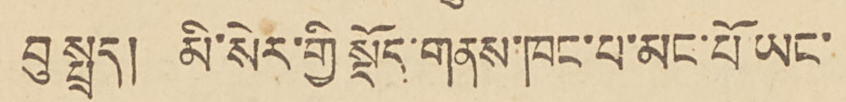བུ་སྤྲད། མི་སེར་གྱི སྡོད་གནས་ཁང་པ་མང་པོ ཡང་
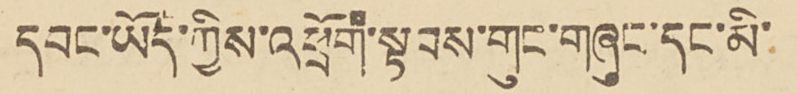དབང་ཡོད་ཀྱིས་འཕྲོག་སྟབས་གུང་གཞུང་དང་མི་
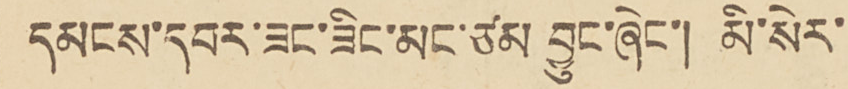དམངས་དབར་ཟང་ཟིང་མང་ཙམ བྱུང་ཞེང་། མི་སེར་
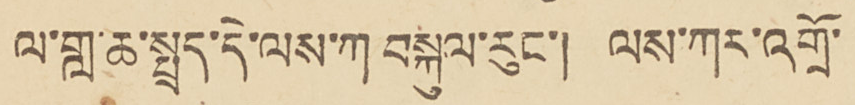ལ་གླ་ཆ་སྤྲད་དེ་ལས་ཀ བསྐུལ་རུང་། ལས་ཀར་འགྲོ་
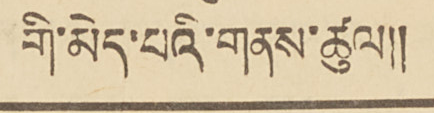གི་མེད་པའི་གནས་ཚུལ།།
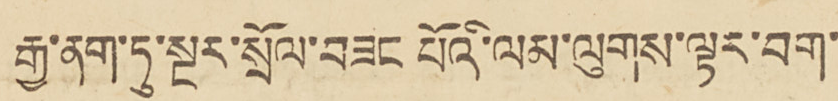རྒྱ་ནག་ཏུ་སྔར་སྲོལ་བཟང པོའི་ལམ་ལུགས་ལྟར་བག་
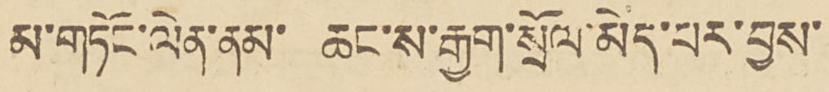མ་གཏོང་ལེན་ནམ་ ཆང་ས་རྒྱག་སྲོལ་མེད་པར་བྱས་
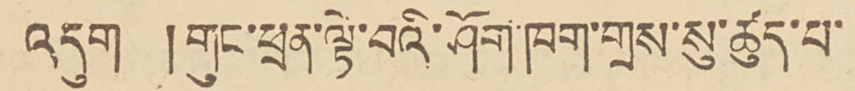འདུག །གུང་ཕྲན་ལྟེ་བའི་ཤོག་ཁག་གྲས་སུ་ཚུད་པ་
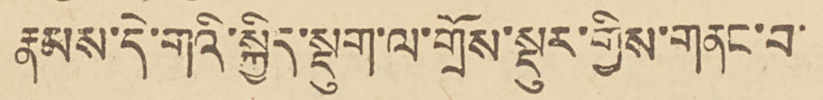རྣམས་དེ་གའི་སྐྱིད་སྡུག་ལ་གྲོས་སྡུར་གྱིས་གནང་བ་
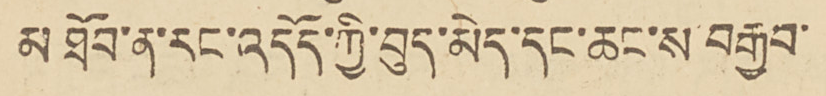མ་ཐོབ་ན་རང་འདོད་ཀྱི་བུད་མེད་དང་ཆང་ས་བརྒྱབ་
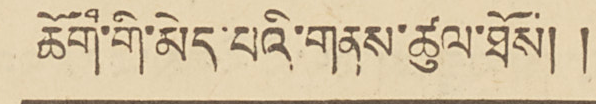ཆོག་གི་མེད་པའི་གནས་ཚུལ་ཐོས།།
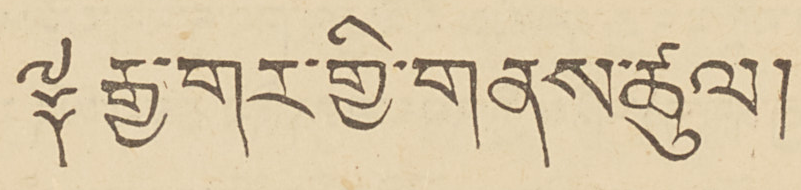༈ རྒྱ་གར་གྱི་གནས་ཚུལ།
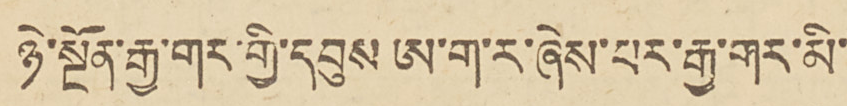ཉེ་སྔོན་རྒྱ་གར་གྱི་དབུས ཨ་ག་ར་ཞེས་པར་རྒྱ་གར་མི་
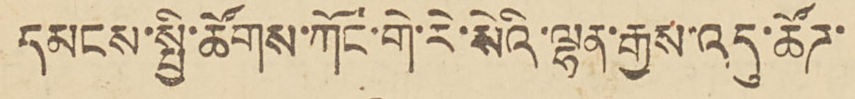དམངས་སྤྱི་ཚོགས་ཀོང་གེ་རེ་སེའི་ལྷན་རྒྱས་འདུ་ཚོཌ་
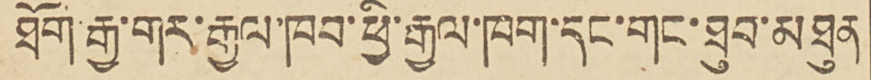ཐོག་རྒྱ་གར་རྒྱལ་ཁབ་ཕྱི་རྒྱལ་ཁག་དང་གང་ཐུབ་མཐུན
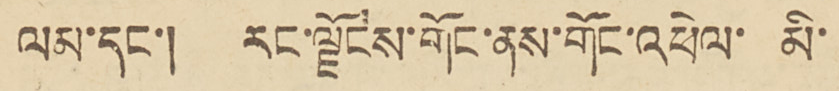ལམ་དང་། རང་ལྗོངས་གོང་ནས་གོང་འཕེལ་མི་
